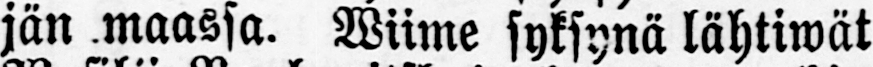jän maassa. Wiime syksynä lähtiwät
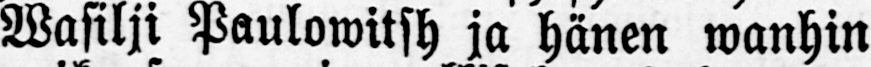Wasilji Paulowitsh ja hänen wanhin
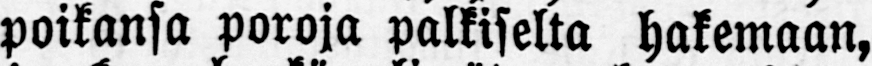poikansa poroja palkiselta hakemaan,
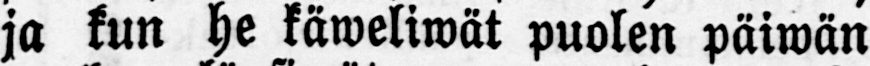ja kun he käweliwät puolen päiwän
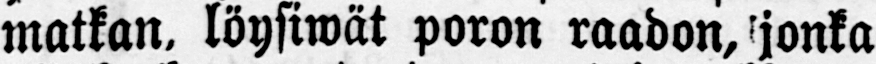matkan, löysiwät poron raadon, jonka
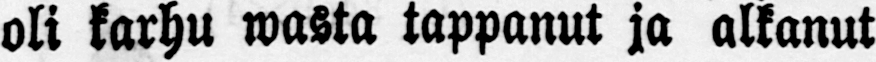oli karhu wasta tappanut ja alkanut
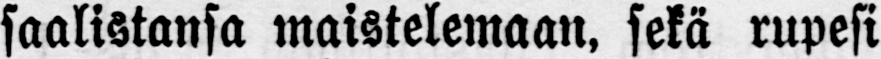saalistansa maistelemaan, sekä rupesi
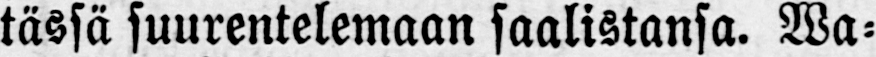tässä suurentelemaan saalistansa. Wa-
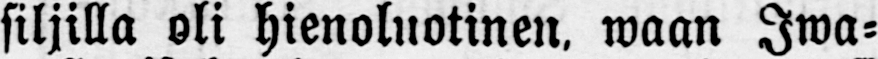siljilla oli hienoluotinen, waan Iwa-
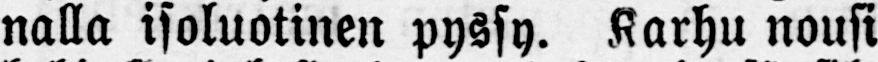nalla isoluotinen pyssy. Karhu nousi
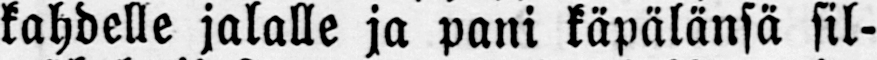kahdelle jalalle ja pani käpälänsä sil-
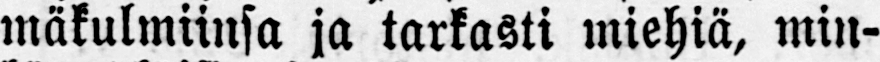mäkulmiinsa ja tarkasti miehiä, min-
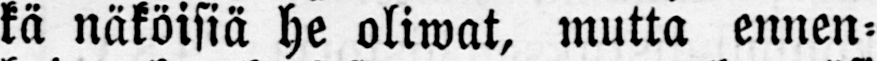kä näköisiä he oliwat, mutta ennen-
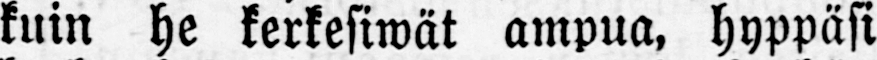kuin he kerkesiwät ampua, hyppäsi
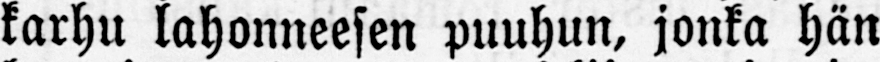karhu lahonneesen puuhun, jonka hän
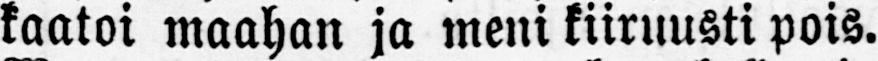kaatoi maahan ja meni kiiruusti pois.
